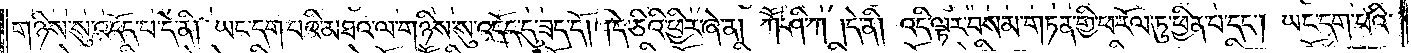གཉིས་སུ་འདོད་པ་དེ་ནི། ཡང་དག་པའི་མཐའ་ལ་གཉིས་སུ་འདོད་དུ་ཟད་དོ། །དེ་ཅིའི་ཕྱིར་ཞེ་ན། ཀཽ་ཤི་ཀ །དེ་ནི། འདི་ལྟར་བསམ་གཏན་གྱི་ཕ་རོལ་ཏུ་ཕྱིན་པ་དང༌། ཡང་དག་པའི་
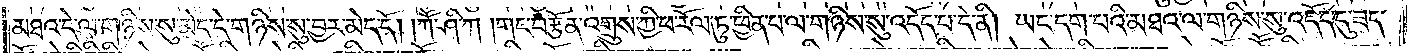མཐའ་དེ་ལ་གཉིས་སུ་མེད་དེ་གཉིས་སུ་བྱར་མེད་དོ། །ཀཽ་ཤི་ཀ །གང་བརྩོན་འགྲུས་ཀྱི་ཕ་རོལ་ཏུ་ཕྱིན་པ་ལ་གཉིས་སུ་འདོད་པ་དེ་ནི། ཡང་དག་པའི་མཐའ་ལ་གཉིས་སུ་འདོད་དུ་ཟད་
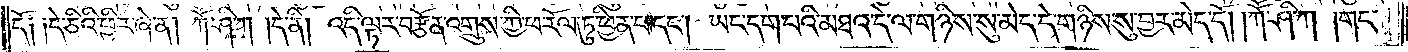དོ། །དེ་ཅིའི་ཕྱིར་ཞེ་ན། ཀཽ་ཤི་ཀ །དེ་ནི། འདི་ལྟར་བརྩོན་འགྲུས་ཀྱི་ཕ་རོལ་ཏུ་ཕྱིན་པ་དང༌། ཡང་དག་པའི་མཐའ་དེ་ལ་གཉིས་སུ་མེད་དེ་གཉིས་སུ་བྱར་མེད་དོ། །ཀཽ་ཤི་ཀ །གང་
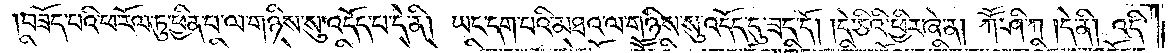བཟོད་པའི་ཕ་རོལ་ཏུ་ཕྱིན་པ་ལ་གཉིས་སུ་འདོད་པ་དེ་ནི། ཡང་དག་པའི་མཐའ་ལ་གཉིས་སུ་འདོད་དུ་ཟད་དོ། །དེ་ཅིའི་ཕྱིར་ཞེ་ན། ཀཽ་ཤི་ཀ །དེ་ནི། འདི་
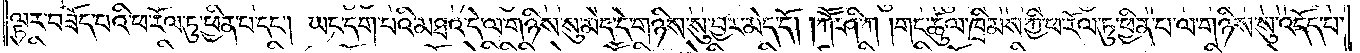ལྟར་བཟོད་པའི་ཕ་རོལ་ཏུ་ཕྱིན་པ་དང༌། ཡང་དག་པའི་མཐའ་དེ་ལ་གཉིས་སུ་མེད་དེ་གཉིས་སུ་བྱར་མེད་དོ། །ཀཽ་ཤི་ཀ །གང་ཚུལ་ཁྲིམས་ཀྱི་ཕ་རོལ་ཏུ་ཕྱིན་པ་ལ་གཉིས་སུ་འདོད་པ་
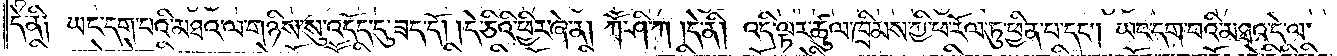དེ་ནི། ཡང་དག་པའི་མཐའ་ལ་གཉིས་སུ་འདོད་དུ་ཟད་དོ། །དེ་ཅིའི་ཕྱིར་ཞེ་ན། ཀཽ་ཤི་ཀ །དེ་ནི། འདི་ལྟར་ཚུལ་ཁྲིམས་ཀྱི་ཕ་རོལ་ཏུ་ཕྱིན་པ་དང༌། ཡང་དག་པའི་མཐའ་དེ་ལ་
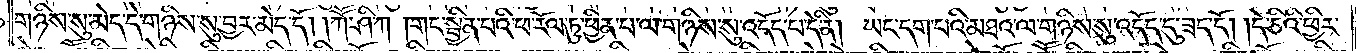གཉིས་སུ་མེད་དེ་གཉིས་སུ་བྱར་མེད་དོ། །ཀཽ་ཤི་ཀ །གང་སྦྱིན་པའི་ཕ་རོལ་ཏུ་ཕྱིན་པ་ལ་གཉིས་སུ་འདོད་པ་དེ་ནི། ཡང་དག་པའི་མཐའ་ལ་གཉིས་སུ་འདོད་དུ་ཟད་དོ། །དེ་ཅིའི་ཕྱིར་
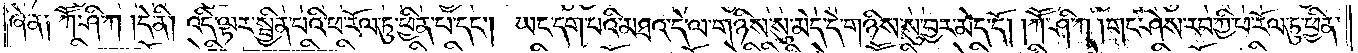ཞེ་ན། ཀཽ་ཤི་ཀ །དེ་ནི། འདི་ལྟར་སྦྱིན་པའི་ཕ་རོལ་ཏུ་ཕྱིན་པ་དང༌། ཡང་དག་པའི་མཐའ་དེ་ལ་གཉིས་སུ་མེད་དེ་གཉིས་སུ་བྱར་མེད་དོ། །ཀཽ་ཤི་ཀ །གང་ཤེས་རབ་ཀྱི་ཕ་རོལ་ཏུ་ཕྱིན་
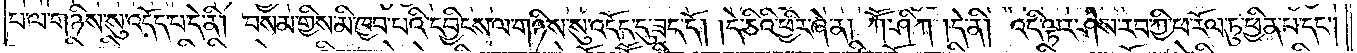པ་ལ་གཉིས་སུ་འདོད་པ་དེ་ནི། བསམ་གྱིས་མི་ཁྱབ་པའི་དབྱིངས་ལ་གཉིས་སུ་འདོད་དུ་ཟད་དོ། །དེ་ཅིའི་ཕྱིར་ཞེ་ན། ཀཽ་ཤི་ཀ །དེ་ནི། འདི་ལྟར་ཤེས་རབ་ཀྱི་ཕ་རོལ་ཏུ་ཕྱིན་པ་དང༌།
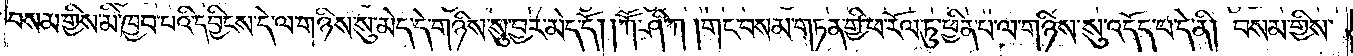བསམ་གྱིས་མི་ཁྱབ་པའི་དབྱིངས་དེ་ལ་གཉིས་སུ་མེད་དེ་གཉིས་སུ་བྱར་མེད་དོ། །ཀཽ་ཤི་ཀ །གང་བསམ་གཏན་གྱི་ཕ་རོལ་ཏུ་ཕྱིན་པ་ལ་གཉིས་སུ་འདོད་པ་དེ་ནི། བསམ་གྱིས་
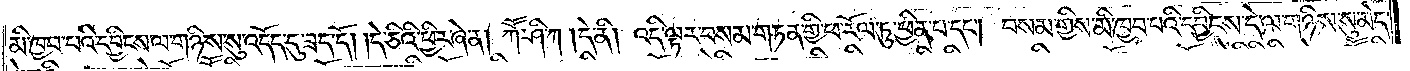མི་ཁྱབ་པའི་དབྱིངས་ལ་གཉིས་སུ་འདོད་དུ་ཟད་དོ། །དེ་ཅིའི་ཕྱིར་ཞེ་ན། ཀཽ་ཤི་ཀ །དེ་ནི། འདི་ལྟར་བསམ་གཏན་གྱི་ཕ་རོལ་ཏུ་ཕྱིན་པ་དང༌། བསམ་གྱིས་མི་ཁྱབ་པའི་དབྱིངས་དེ་ལ་གཉིས་སུ་མེད་
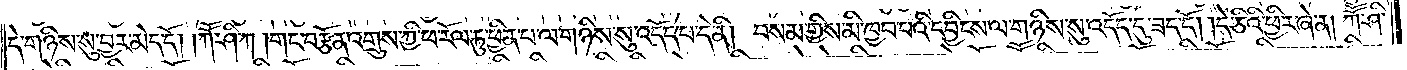དེ་གཉིས་སུ་བྱར་མེད་དོ། །ཀཽ་ཤི་ཀ །གང་བརྩོན་འགྲུས་ཀྱི་ཕ་རོལ་ཏུ་ཕྱིན་པ་ལ་གཉིས་སུ་འདོད་པ་དེ་ནི། བསམ་གྱིས་མི་ཁྱབ་པའི་དབྱིངས་ལ་གཉིས་སུ་འདོད་དུ་ཟད་དོ། །དེ་ཅིའི་ཕྱིར་ཞེ་ན། ཀཽ་ཤི་
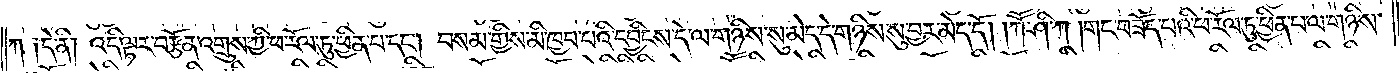ཀ །དེ་ནི། འདི་ལྟར་བརྩོན་འགྲུས་ཀྱི་ཕ་རོལ་ཏུ་ཕྱིན་པ་དང༌། བསམ་གྱིས་མི་ཁྱབ་པའི་དབྱིངས་དེ་ལ་གཉིས་སུ་མེད་དེ་གཉིས་སུ་བྱར་མེད་དོ། །ཀཽ་ཤི་ཀ །གང་བཟོད་པའི་ཕ་རོལ་ཏུ་ཕྱིན་པ་ལ་གཉིས་
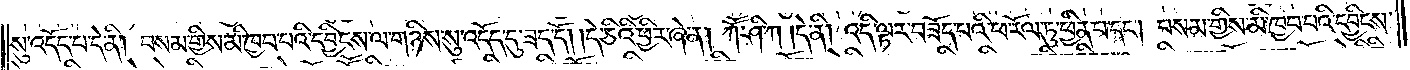སུ་འདོད་པ་དེ་ནི། བསམ་གྱིས་མི་ཁྱབ་པའི་དབྱིངས་ལ་གཉིས་སུ་འདོད་དུ་ཟད་དོ། །དེ་ཅིའི་ཕྱིར་ཞེ་ན། ཀཽ་ཤི་ཀ །དེ་ནི། འདི་ལྟར་བཟོད་པའི་ཕ་རོལ་ཏུ་ཕྱིན་པ་དང༌། བསམ་གྱིས་མི་ཁྱབ་པའི་དབྱིངས་
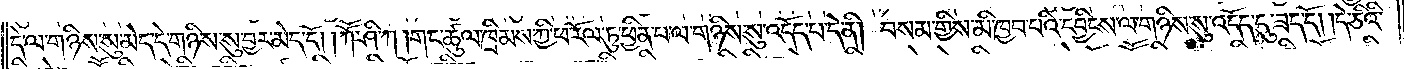དེ་ལ་གཉིས་སུ་མེད་དེ་གཉིས་སུ་བྱར་མེད་དོ། །ཀཽ་ཤི་ཀ །གང་ཚུལ་ཁྲིམས་ཀྱི་ཕ་རོལ་ཏུ་ཕྱིན་པ་ལ་གཉིས་སུ་འདོད་པ་དེ་ནི། བསམ་གྱིས་མི་ཁྱབ་པའི་དབྱིངས་ལ་གཉིས་སུ་འདོད་དུ་ཟད་དོ། །དེ་ཅིའི་
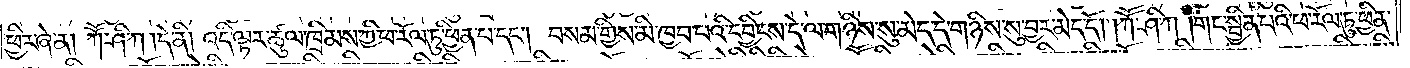ཕྱིར་ཞེ་ན། ཀཽ་ཤི་ཀ །དེ་ནི། འདི་ལྟར་ཚུལ་ཁྲིམས་ཀྱི་ཕ་རོལ་ཏུ་ཕྱིན་པ་དང༌། བསམ་གྱིས་མི་ཁྱབ་པའི་དབྱིངས་དེ་ལ་གཉིས་སུ་མེད་དེ་གཉིས་སུ་བྱར་མེད་དོ། །ཀཽ་ཤི་ཀ །གང་སྦྱིན་པའི་ཕ་རོལ་ཏུ་ཕྱིན་
